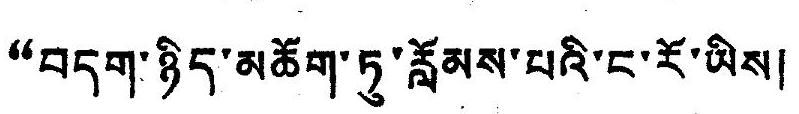བདག་ཉིད་མཆོག་ཏུ་རློམས་པའི་ང་རོ་ཡིས།
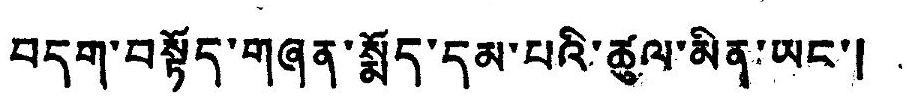བདག་བསྟོད་གཞན་སྨོད་དམ་པའི་ཚུལ་མིན་ཡང་།
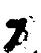7
